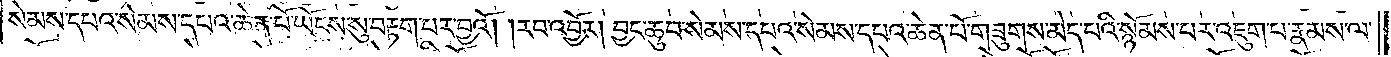སེམས་དཔའ་སེམས་དཔའ་ཆེན་པོ་ཡོངས་སུ་བརྟག་པར་བྱའོ། །རབ་འབྱོར། བྱང་ཆུབ་སེམས་དཔའ་སེམས་དཔའ་ཆེན་པོ་གཟུགས་མེད་པའི་སྙོམས་པར་འཇུག་པ་རྣམས་ལ་
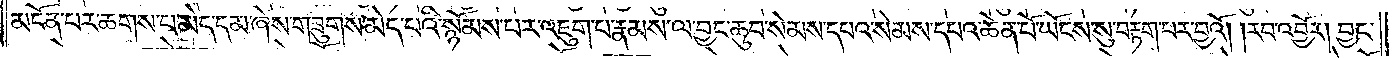མངོན་པར་ཆགས་པ་མེད་དམ་ཞེས་གཟུགས་མེད་པའི་སྙོམས་པར་འཇུག་པ་རྣམས་ལ་བྱང་ཆུབ་སེམས་དཔའ་སེམས་དཔའ་ཆེན་པོ་ཡོངས་སུ་བརྟག་པར་བྱའོ། །རབ་འབྱོར། བྱང་
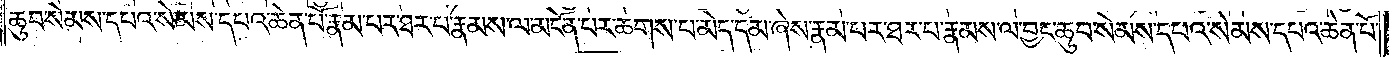ཆུབ་སེམས་དཔའ་སེམས་དཔའ་ཆེན་པོ་རྣམ་པར་ཐར་པ་རྣམས་ལ་མངོན་པར་ཆགས་པ་མེད་དམ་ཞེས་རྣམ་པར་ཐར་པ་རྣམས་ལ་བྱང་ཆུབ་སེམས་དཔའ་སེམས་དཔའ་ཆེན་པོ་
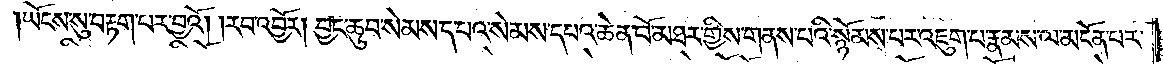ཡོངས་སུ་བརྟག་པར་བྱའོ། །རབ་འབྱོར། བྱང་ཆུབ་སེམས་དཔའ་སེམས་དཔའ་ཆེན་པོ་མཐར་གྱིས་གནས་པའི་སྙོམས་པར་འཇུག་པ་རྣམས་ལ་མངོན་པར་
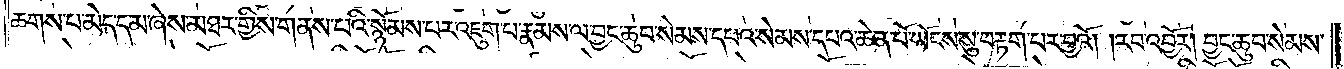ཆགས་པ་མེད་དམ་ཞེས་མཐར་གྱིས་གནས་པའི་སྙོམས་པར་འཇུག་པ་རྣམས་ལ་བྱང་ཆུབ་སེམས་དཔའ་སེམས་དཔའ་ཆེན་པོ་ཡོངས་སུ་བརྟག་པར་བྱའོ། །རབ་འབྱོར། བྱང་ཆུབ་སེམས་
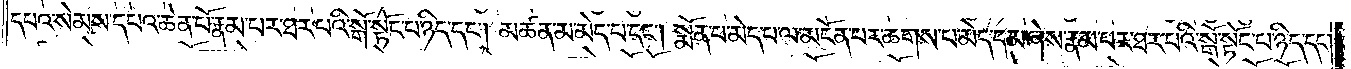དཔའ་སེམས་དཔའ་ཆེན་པོ་རྣམ་པར་ཐར་པའི་སྒོ་སྟོང་པ་ཉིད་དང༌། མཚན་མ་མེད་པ་དང༌། སྨོན་པ་མེད་པ་ལ་མངོན་པར་ཆགས་པ་མེད་དམ་ཞེས་རྣམ་པར་ཐར་པའི་སྒོ་སྟོང་པ་ཉིད་དང༌།
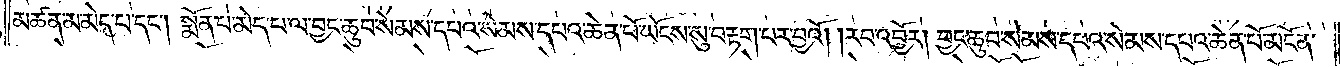མཚན་མ་མེད་པ་དང༌། སྨོན་པ་མེད་པ་ལ་བྱང་ཆུབ་སེམས་དཔའ་སེམས་དཔའ་ཆེན་པོ་ཡོངས་སུ་བརྟག་པར་བྱའོ། །རབ་འབྱོར། བྱང་ཆུབ་སེམས་དཔའ་སེམས་དཔའ་ཆེན་པོ་མངོན་
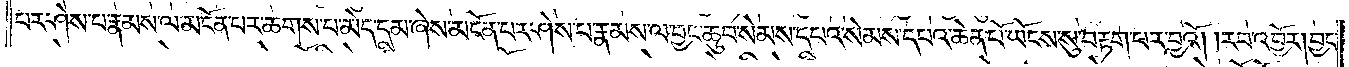པར་ཤེས་པ་རྣམས་ལ་མངོན་པར་ཆགས་པ་མེད་དམ་ཞེས་མངོན་པར་ཤེས་པ་རྣམས་ལ་བྱང་ཆུབ་སེམས་དཔའ་སེམས་དཔའ་ཆེན་པོ་ཡོངས་སུ་བརྟག་པར་བྱའོ། །རབ་འབྱོར། བྱང་
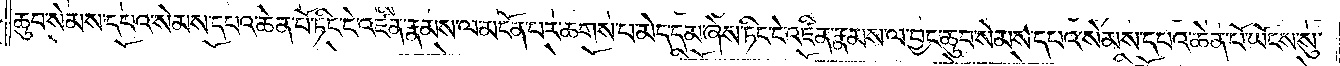ཆུབ་སེམས་དཔའ་སེམས་དཔའ་ཆེན་པོ་ཏིང་ངེ་འཛིན་རྣམས་ལ་མངོན་པར་ཆགས་པ་མེད་དམ་ཞེས་ཏིང་ངེ་འཛིན་རྣམས་ལ་བྱང་ཆུབ་སེམས་དཔའ་སེམས་དཔའ་ཆེན་པོ་ཡོངས་སུ་
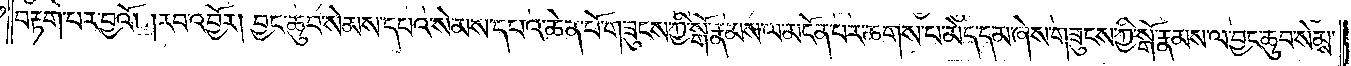བརྟག་པར་བྱའོ། །རབ་འབྱོར། བྱང་ཆུབ་སེམས་དཔའ་སེམས་དཔའ་ཆེན་པོ་གཟུངས་ཀྱི་སྒོ་རྣམས་ལ་མངོན་པར་ཆགས་པ་མེད་དམ་ཞེས་གཟུངས་ཀྱི་སྒོ་རྣམས་ལ་བྱང་ཆུབ་སེམས་
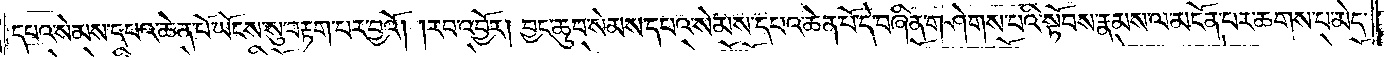དཔའ་སེམས་དཔའ་ཆེན་པོ་ཡོངས་སུ་བརྟག་པར་བྱའོ། །རབ་འབྱོར། བྱང་ཆུབ་སེམས་དཔའ་སེམས་དཔའ་ཆེན་པོ་དེ་བཞིན་གཤེགས་པའི་སྟོབས་རྣམས་ལ་མངོན་པར་ཆགས་པ་མེད་
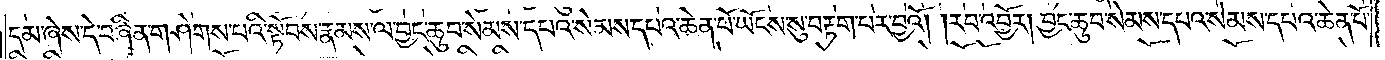དམ་ཞེས་དེ་བཞིན་གཤེགས་པའི་སྟོབས་རྣམས་ལ་བྱང་ཆུབ་སེམས་དཔའ་སེམས་དཔའ་ཆེན་པོ་ཡོངས་སུ་བརྟག་པར་བྱའོ། །རབ་འབྱོར། བྱང་ཆུབ་སེམས་དཔའ་སེམས་དཔའ་ཆེན་པོ་
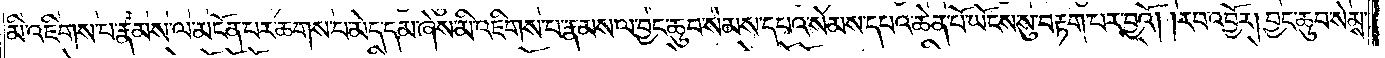མི་འཇིགས་པ་རྣམས་ལ་མངོན་པར་ཆགས་པ་མེད་དམ་ཞེས་མི་འཇིགས་པ་རྣམས་ལ་བྱང་ཆུབ་སེམས་དཔའ་སེམས་དཔའ་ཆེན་པོ་ཡོངས་སུ་བརྟག་པར་བྱའོ། །རབ་འབྱོར། བྱང་ཆུབ་སེམས་
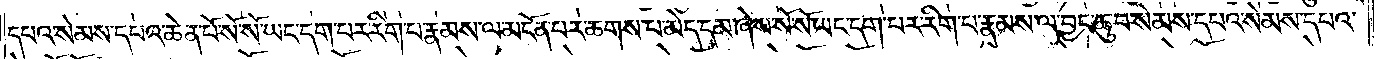དཔའ་སེམས་དཔའ་ཆེན་པོ་སོ་སོ་ཡང་དག་པར་རིག་པ་རྣམས་ལ་མངོན་པར་ཆགས་པ་མེད་དམ་ཞེས་སོ་སོ་ཡང་དག་པར་རིག་པ་རྣམས་ལ་བྱང་ཆུབ་སེམས་དཔའ་སེམས་དཔའ་
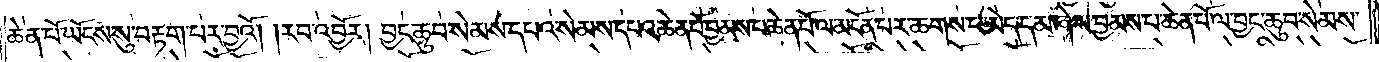ཆེན་པོ་ཡོངས་སུ་བརྟག་པར་བྱའོ། །རབ་འབྱོར། བྱང་ཆུབ་སེམས་དཔའ་སེམས་དཔའ་ཆེན་པོ་བྱམས་པ་ཆེན་པོ་ལ་མངོན་པར་ཆགས་པ་མེད་དམ་ཞེས་བྱམས་པ་ཆེན་པོ་ལ་བྱང་ཆུབ་སེམས་
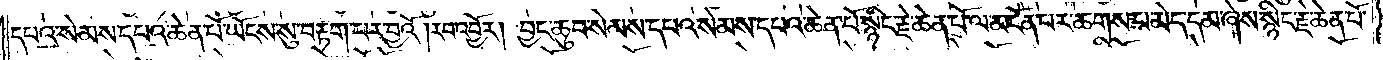དཔའ་སེམས་དཔའ་ཆེན་པོ་ཡོངས་སུ་བརྟག་པར་བྱའོ། །རབ་འབྱོར། བྱང་ཆུབ་སེམས་དཔའ་སེམས་དཔའ་ཆེན་པོ་སྙིང་རྗེ་ཆེན་པོ་ལ་མངོན་པར་ཆགས་པ་མེད་དམ་ཞེས་སྙིང་རྗེ་ཆེན་པོ་
